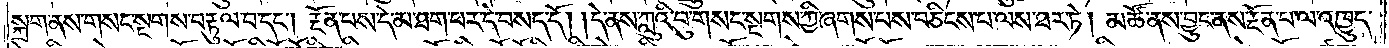སྐྲག་ནས་གསང་སྔགས་བརྟུལ་བ་དང༌། རྔོན་པས་དེ་མ་ཐག་པར་དེ་བསད་དོ། །དེ་ནས་ཀླུའི་བུ་གསང་སྔགས་ཀྱི་ཞགས་པས་བཅིངས་པ་ལས་ཐར་ཏེ། མཚོ་ནས་བྱུང་ནས་རྔོན་པ་ལ་འཁྱུད་
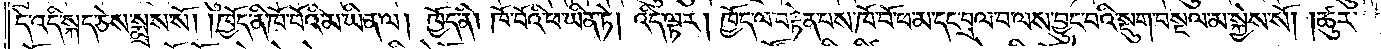དེ་འདི་སྐད་ཅེས་སྨྲས་སོ། །ཁྱོད་ནི་ཁོ་བོའི་མ་ཡིན་ལ། ཁྱོད་ནི། ཁོ་བོའི་ཕ་ཡིན་ཏེ། འདི་ལྟར། ཁྱོད་ལ་བརྟེན་པས་ཁོ་བོ་ཕ་མ་དང་བྲལ་བ་ལས་བྱུང་བའི་སྡུག་བསྔལ་མ་སྐྱེས་སོ། །ཚུར་
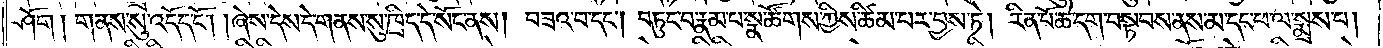ཤོག། གནས་སུ་འདོད་ངོ༌། །ཞེས་དེས་དེ་གནས་སུ་ཁྲིད་དེ་སོང་ནས། བཟའ་བ་དང༌། བཏུང་བ་རྣམ་པ་སྣ་ཚོགས་ཀྱིས་ཚིམ་པར་བྱས་ཏེ། རིན་པོ་ཆེ་དག་བསྟབས་ནས་མ་དང་ཕ་ལ་སྨྲས་པ།
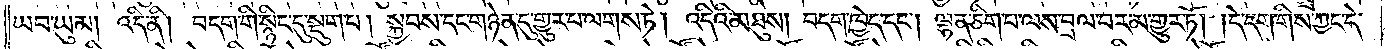ཡབ་ཡུམ། འདི་ནི། བདག་གི་སྙིང་དུ་སྡུག་པ། སྐྱབས་དང་གཉེན་དུ་གྱུར་པ་ལགས་ཏེ། འདིའི་མཐུས། བདག་ཁྱེད་དང༌། ལྷན་ཅིག་པ་ལས་བྲལ་བར་མ་གྱུར་ཏོ། །དེ་དག་གིས་ཀྱང་དེ་
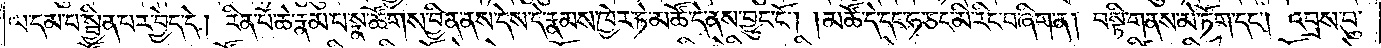ལ་དམ་པ་སྦྱིན་པར་བྱེད་དེ། རིན་པོ་ཆེ་རྣམ་པ་སྣ་ཚོགས་བྱིན་ནས་དེས་དེ་རྣམས་ཁྱེར་ཏེ་མཚོ་དེ་ནས་བྱུང་ངོ༌། །མཚོ་དེ་དང་ཧ་ཅང་མི་རིང་བ་ཞིག་ན། བསྟི་གནས་མེ་ཏོག་དང༌། འབྲས་བུ་
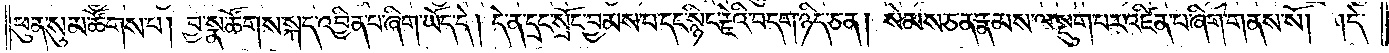ཕུན་སུམ་ཚོགས་པ། བྱ་སྣ་ཚོགས་སྐད་འབྱིན་པ་ཞིག་ཡོད་དེ། དེ་ན་དྲང་སྲོང་བྱམས་པ་དང་སྙིང་རྗེའི་བདག་ཉིད་ཅན། སེམས་ཅན་རྣམས་ལ་སྡུག་པར་འཛིན་པ་ཞིག་གནས་སོ། །དེ་
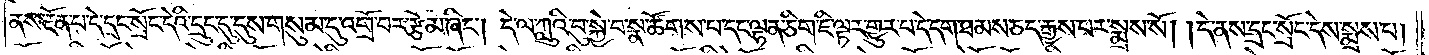ནས་རྔོན་པ་དེ་དྲང་སྲོང་དེའི་དྲུང་དུ་དུས་གསུམ་དུ་འགྲོ་བར་རྩོམ་ཞིང༌། དེ་ལ་ཀླུའི་བུ་སྐྱེ་བ་སྣ་ཚོགས་པ་དང་ལྷན་ཅིག་ཇི་ལྟར་གྱུར་པ་དེ་དག་ཐམས་ཅད་རྒྱས་པར་སྨྲས་སོ། །དེ་ནས་དྲང་སྲོང་དེས་སྨྲས་པ།
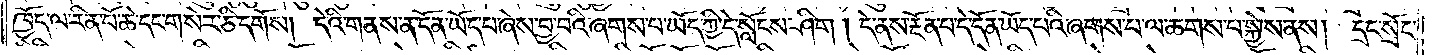ཁྱོད་ལ་རིན་པོ་ཆེ་དང་གསེར་ཅི་དགོས། དེའི་གནས་ན་དོན་ཡོད་པ་ཞེས་བྱ་བའི་ཞགས་པ་ཡོད་ཀྱི་དེ་སློངས་ཤིག། དེ་ནས་རྔོན་པ་དེ་དོན་ཡོད་པའི་ཞགས་པ་ལ་ཆགས་པ་སྐྱེས་ནས། དྲང་སྲོང་
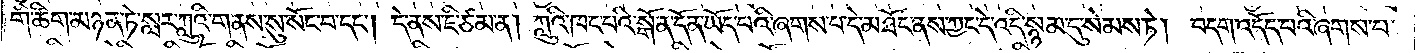གི་ཚིག་མཉན་ཏེ་སླར་ཀླུའི་གནས་སུ་སོང་བ་དང༌། དེ་ནས་ཇི་ཙམ་ན། ཀླུའི་ཁང་པའི་སྒོ་ན་དོན་ཡོད་པའི་ཞགས་པ་དེ་མཐོང་ནས་ཀྱང་དེ་འདི་སྙམ་དུ་སེམས་ཏེ། བདག་འདོད་པའི་ཞགས་པ་
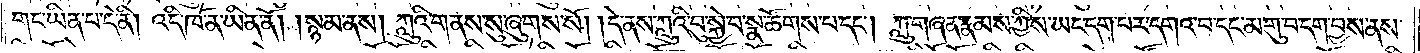གང་ཡིན་པ་དེ་ནི། འདི་ཁོ་ན་ཡིན་ནོ། །སྙམ་ནས། ཀླུའི་གནས་སུ་ཞུགས་སོ། །དེ་ནས་ཀླུའི་བུ་སྐྱེ་བ་སྣ་ཚོགས་པ་དང༌། ཀླུ་གཞན་རྣམས་ཀྱིས་ཡང་དག་པར་དགའ་བ་དང་མགུ་བ་དག་བྱས་ནས་
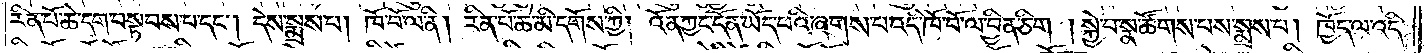རིན་པོ་ཆེ་དག་བསྟབས་པ་དང༌། དེས་སྨྲས་པ། ཁོ་བོ་ལ་ནི། རིན་པོ་ཆེ་མི་དགོས་ཀྱི། འོན་ཀྱང་དོན་ཡོད་པའི་ཞགས་པ་འདི་ཁོ་བོ་ལ་བྱིན་ཅིག །སྐྱེ་བ་སྣ་ཚོགས་པས་སྨྲས་པ། ཁྱོད་ལ་འདི་
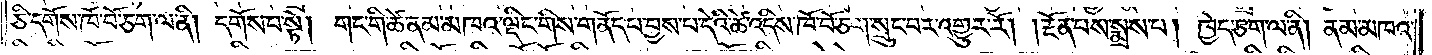ཅི་དགོས་ཁོ་བོ་ཅག་ལ་ནི། དགོས་པ་སྟེ། གང་གི་ཚེ་ནམ་མཁའ་ལྡིང་གིས་གནོད་པ་བྱས་པ་དེའི་ཚེ་འདིས་ཁོ་བོ་ཅག་སྲུང་བར་འགྱུར་རོ། །རྔོན་པས་སྨྲས་པ། ཁྱེད་ཅག་ལ་ནི། ནམ་མཁའ་
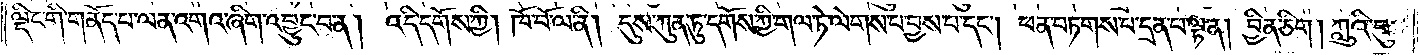ལྡིང་གི་གནོད་པ་ལན་འགའ་ཞིག་འབྱུང་བ་ན། འདི་དགོས་ཀྱི། ཁོ་བོ་ལ་ནི། དུས་ཀུན་ཏུ་དགོས་ཀྱི་གལ་ཏེ་ལེགས་པ་བྱས་པ་དང༌། ཕན་བཏགས་པ་དྲན་པ་ལྟ་ན། བྱིན་ཅིག། ཀླུའི་བུ་
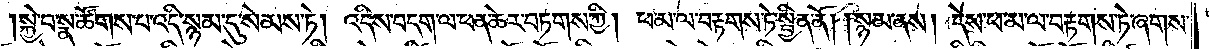སྐྱེ་བ་སྣ་ཚོགས་པ་འདི་སྙམ་དུ་སེམས་ཏེ། འདིས་བདག་ལ་ཕན་ཆེར་བཏགས་ཀྱི། ཕ་མ་ལ་བརྟགས་ཏེ་སྦྱིན་ནོ། །སྙམ་ནས། དེས་ཕ་མ་ལ་བརྟགས་ཏེ་ཞགས་
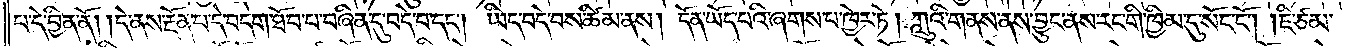པ་དེ་བྱིན་ནོ། །དེ་ནས་རྔོན་པ་དེ་བདག་ཐོབ་པ་བཞིན་དུ་བདེ་བ་དང༌། ཡིད་བདེ་བས་ཚིམ་ནས། དོན་ཡོད་པའི་ཞགས་པ་ཁྱེར་ཏེ། ཀླུའི་གནས་ནས་བྱུང་ནས་རང་གི་ཁྱིམ་དུ་སོང་ངོ༌། །ཇི་ཙམ་
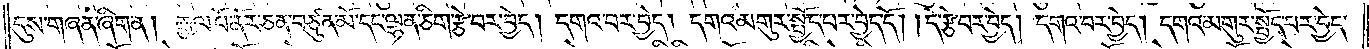དུས་གཞན་ཞིག་ན། རྒྱལ་པོ་ནོར་ཅན་བཙུན་མོ་དང་ལྷན་ཅིག་རྩེ་བར་བྱེད། དགའ་བར་བྱེད། དགའ་མགུར་སྤྱོད་པར་བྱེད་དོ། །དེ་རྩེ་བར་བྱེད། དགའ་བར་བྱེད། དགའ་མགུར་སྤྱོད་པར་བྱེད་
